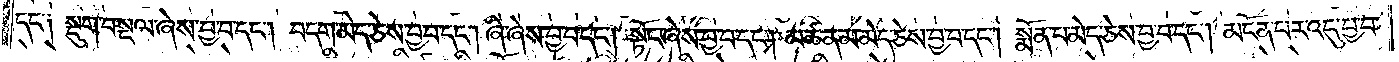དང༌། སྡུག་བསྔལ་ཞེས་བྱ་བ་དང༌། བདག་མེད་ཅེས་བྱ་བ་དང༌། ཞི་ཞེས་བྱ་བ་དང༌། སྟོང་ཞེས་བྱ་བ་དང༌། མཚན་མ་མེད་ཅེས་བྱ་བ་དང༌། སྨོན་པ་མེད་ཅེས་བྱ་བ་དང༌། མངོན་པར་འདུ་བྱ་བ་
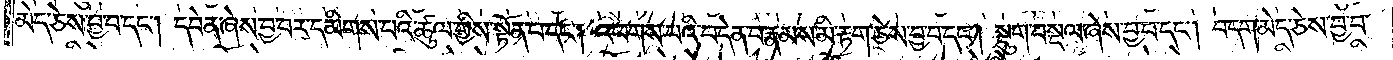མེད་ཅེས་བྱ་བ་དང༌། དབེན་ཞེས་བྱ་བར་དམིགས་པའི་ཚུལ་གྱིས་སྟོན་པ་དང༌། འཕགས་པའི་བདེན་པ་རྣམས་མི་རྟག་ཅེས་བྱ་བ་དང༌། སྡུག་བསྔལ་ཞེས་བྱ་བ་དང༌། བདག་མེད་ཅེས་བྱ་བ་
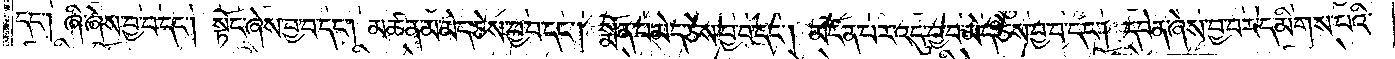དང༌། ཞི་ཞེས་བྱ་བ་དང༌། སྟོང་ཞེས་བྱ་བ་དང༌། མཚན་མ་མེད་ཅེས་བྱ་བ་དང༌། སྨོན་པ་མེད་ཅེས་བྱ་བ་དང༌། མངོན་པར་འདུ་བྱ་བ་མེད་ཅེས་བྱ་བ་དང༌། དབེན་ཞེས་བྱ་བར་དམིགས་པའི་
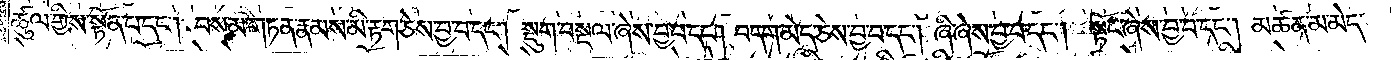ཚུལ་གྱིས་སྟོན་པ་དང༌། བསམ་གཏན་རྣམས་མི་རྟག་ཅེས་བྱ་བ་དང༌། སྡུག་བསྔལ་ཞེས་བྱ་བ་དང༌། བདག་མེད་ཅེས་བྱ་བ་དང༌། ཞི་ཞེས་བྱ་བ་དང༌། སྟོང་ཞེས་བྱ་བ་དང༌། མཚན་མ་མེད་
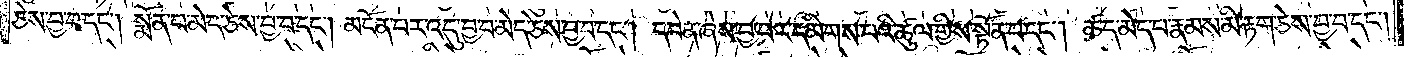ཅེས་བྱ་བ་དང༌། སྨོན་པ་མེད་ཅེས་བྱ་བ་དང༌། མངོན་པར་འདུ་བྱ་བ་མེད་ཅེས་བྱ་བ་དང༌། དབེན་ཞེས་བྱ་བར་དམིགས་པའི་ཚུལ་གྱིས་སྟོན་པ་དང༌། ཚད་མེད་པ་རྣམས་མི་རྟག་ཅེས་བྱ་བ་དང༌།
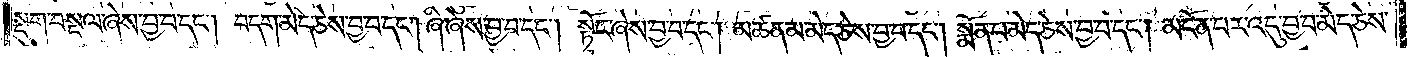སྡུག་བསྔལ་ཞེས་བྱ་བ་དང༌། བདག་མེད་ཅེས་བྱ་བ་དང༌། ཞི་ཞེས་བྱ་བ་དང༌། སྟོང་ཞེས་བྱ་བ་དང༌། མཚན་མ་མེད་ཅེས་བྱ་བ་དང༌། སྨོན་པ་མེད་ཅེས་བྱ་བ་དང༌། མངོན་པར་འདུ་བྱ་བ་མེད་ཅེས་
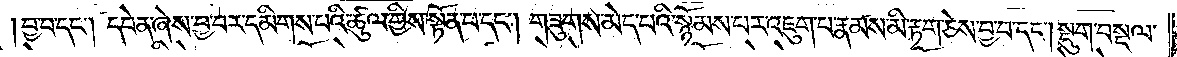བྱ་བ་དང༌། དབེན་ཞེས་བྱ་བར་དམིགས་པའི་ཚུལ་གྱིས་སྟོན་པ་དང༌། གཟུགས་མེད་པའི་སྙོམས་པར་འཇུག་པ་རྣམས་མི་རྟག་ཅེས་བྱ་བ་དང༌། སྡུག་བསྔལ་
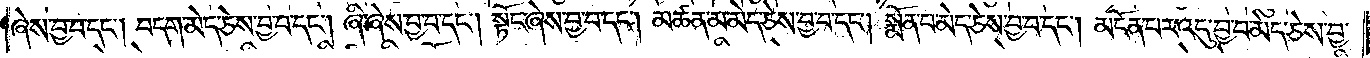ཞེས་བྱ་བ་དང༌། བདག་མེད་ཅེས་བྱ་བ་དང༌། ཞི་ཞེས་བྱ་བ་དང༌། སྟོང་ཞེས་བྱ་བ་དང༌། མཚན་མ་མེད་ཅེས་བྱ་བ་དང༌། སྨོན་པ་མེད་ཅེས་བྱ་བ་དང༌། མངོན་པར་འདུ་བྱ་བ་མེད་ཅེས་བྱ་
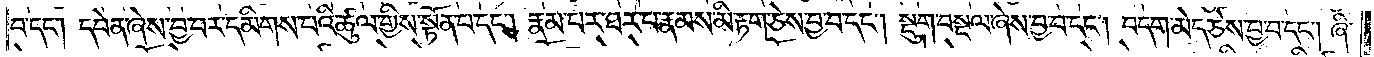བ་དང༌། དབེན་ཞེས་བྱ་བར་དམིགས་པའི་ཚུལ་གྱིས་སྟོན་པ་དང༌། རྣམ་པར་ཐར་པ་རྣམས་མི་རྟག་ཅེས་བྱ་བ་དང༌། སྡུག་བསྔལ་ཞེས་བྱ་བ་དང༌། བདག་མེད་ཅེས་བྱ་བ་དང༌། ཞི་
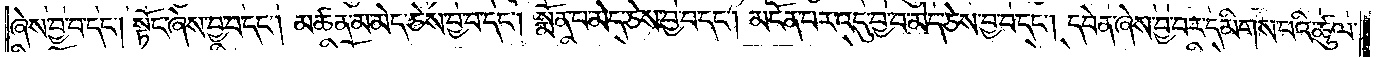ཞེས་བྱ་བ་དང༌། སྟོང་ཞེས་བྱ་བ་དང༌། མཚན་མ་མེད་ཅེས་བྱ་བ་དང༌། སྨོན་པ་མེད་ཅེས་བྱ་བ་དང༌། མངོན་པར་འདུ་བྱ་བ་མེད་ཅེས་བྱ་བ་དང༌། དབེན་ཞེས་བྱ་བར་དམིགས་པའི་ཚུལ་
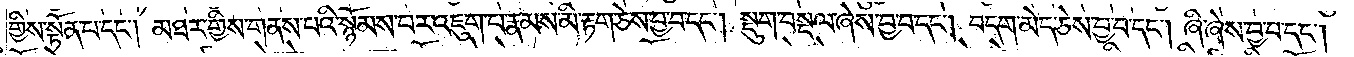གྱིས་སྟོན་པ་དང༌། མཐར་གྱིས་གནས་པའི་སྙོམས་པར་འཇུག་པ་རྣམས་མི་རྟག་ཅེས་བྱ་བ་དང༌། སྡུག་བསྔལ་ཞེས་བྱ་བ་དང༌། བདག་མེད་ཅེས་བྱ་བ་དང༌། ཞི་ཞེས་བྱ་བ་དང༌།
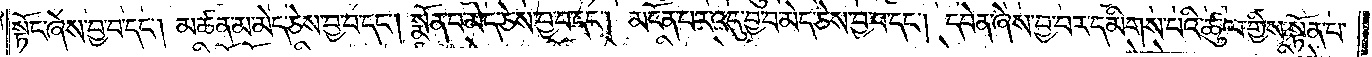སྟོང་ཞེས་བྱ་བ་དང༌། མཚན་མ་མེད་ཅེས་བྱ་བ་དང༌། སྨོན་པ་མེད་ཅེས་བྱ་བ་དང༌། མངོན་པར་འདུ་བྱ་བ་མེད་ཅེས་བྱ་བ་དང༌། དབེན་ཞེས་བྱ་བར་དམིགས་པའི་ཚུལ་གྱིས་སྟོན་པ་
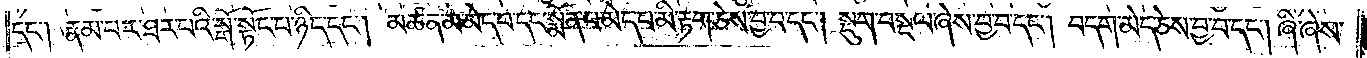དང༌། རྣམ་པར་ཐར་པའི་སྒོ་སྟོང་པ་ཉིད་དང༌། མཚན་མ་མེད་པ་དང་སྨོན་པ་མེད་པ་མི་རྟག་ཅེས་བྱ་བ་དང༌། སྡུག་བསྔལ་ཞེས་བྱ་བ་དང༌། བདག་མེད་ཅེས་བྱ་བ་དང༌། ཞི་ཞེས་
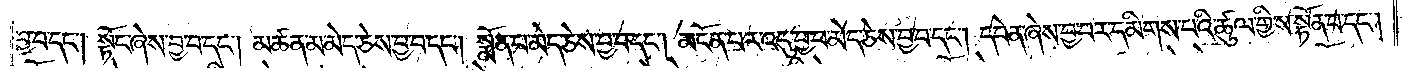བྱ་བ་དང༌། སྟོང་ཞེས་བྱ་བ་དང༌། མཚན་མ་མེད་ཅེས་བྱ་བ་དང༌། སྨོན་པ་མེད་ཅེས་བྱ་བ་དང༌། མངོན་པར་འདུ་བྱ་བ་མེད་ཅེས་བྱ་བ་དང༌། དབེན་ཞེས་བྱ་བར་དམིགས་པའི་ཚུལ་གྱིས་སྟོན་པ་དང༌།
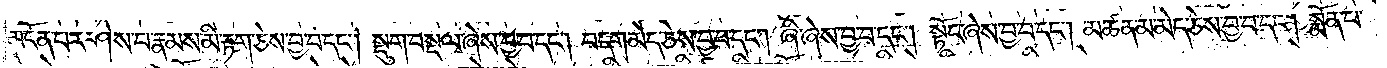མངོན་པར་ཤེས་པ་རྣམས་མི་རྟག་ཅེས་བྱ་བ་དང༌། སྡུག་བསྔལ་ཞེས་བྱ་བ་དང༌། བདག་མེད་ཅེས་བྱ་བ་དང༌། ཞི་ཞེས་བྱ་བ་དང༌། སྟོང་ཞེས་བྱ་བ་དང༌། མཚན་མ་མེད་ཅེས་བྱ་བ་དང༌། སྨོན་པ་
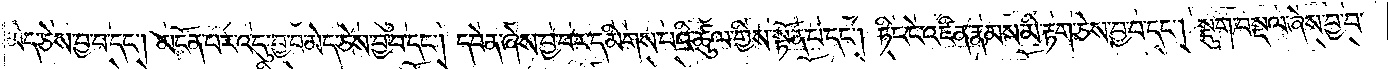མེད་ཅེས་བྱ་བ་དང༌། མངོན་པར་འདུ་བྱ་བ་མེད་ཅེས་བྱ་བ་དང༌། དབེན་ཞེས་བྱ་བར་དམིགས་པའི་ཚུལ་གྱིས་སྟོན་པ་དང༌། ཏིང་ངེ་འཛིན་རྣམས་མི་རྟག་ཅེས་བྱ་བ་དང༌། སྡུག་བསྔལ་ཞེས་བྱ་བ་
